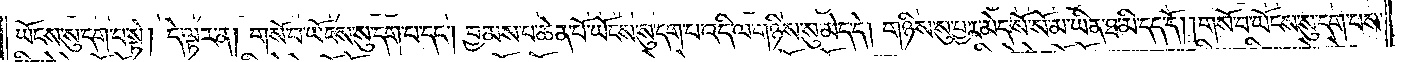ཡོངས་སུ་དག་པ་སྟེ། དེ་ལྟར་ན། གསོ་བ་ཡོངས་སུ་དག་པ་དང༌། བྱམས་པ་ཆེན་པོ་ཡོངས་སུ་དག་པ་འདི་ལ་གཉིས་སུ་མེད་དེ། གཉིས་སུ་བྱར་མེད་སོ་སོ་མ་ཡིན་ཐ་མི་དད་དོ། །གསོ་བ་ཡོངས་སུ་དག་པས་
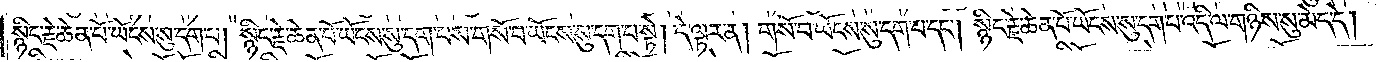སྙིང་རྗེ་ཆེན་པོ་ཡོངས་སུ་དག་པ། སྙིང་རྗེ་ཆེན་པོ་ཡོངས་སུ་དག་པས་གསོ་བ་ཡོངས་སུ་དག་པ་སྟེ། དེ་ལྟར་ན། གསོ་བ་ཡོངས་སུ་དག་པ་དང༌། སྙིང་རྗེ་ཆེན་པོ་ཡོངས་སུ་དག་པ་འདི་ལ་གཉིས་སུ་མེད་དེ།
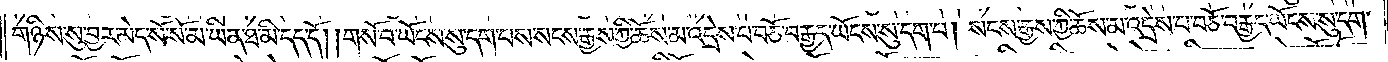གཉིས་སུ་བྱར་མེད་སོ་སོ་མ་ཡིན་ཐ་མི་དད་དོ། །གསོ་བ་ཡོངས་སུ་དག་པས་སངས་རྒྱས་ཀྱི་ཆོས་མ་འདྲེས་པ་བཅོ་བརྒྱད་ཡོངས་སུ་དག་པ། སངས་རྒྱས་ཆོས་མ་དྲེས་པ་བཅོ་བརྒྱད་ཡོངས་སུ་དག་
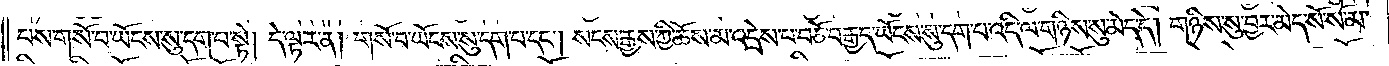པས་གསོ་བ་ཡོངས་སུ་དག་པ་སྟེ། དེ་ལྟར་ན། གསོ་བ་ཡོངས་སུ་དག་པ་དང༌། སངས་རྒྱས་ཀྱི་ཆོས་མ་འདྲེས་པ་བཅོ་བརྒྱད་ཡོངས་སུ་དག་པ་འདི་ལ་གཉིས་སུ་མེད་དེ། གཉིས་སུ་བྱར་མེད་སོ་སོ་མ་
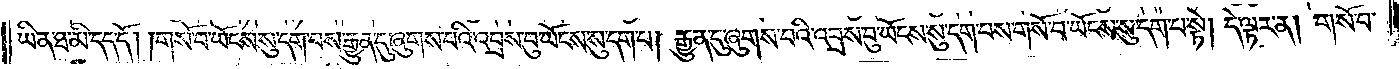ཡིན་ཐ་མི་དད་དོ། །གསོ་བ་ཡོངས་སུ་དག་པས་རྒྱུན་དུ་ཞུགས་པའི་འབྲས་བུ་ཡོངས་སུ་དག་པ། རྒྱུན་དུ་ཞུགས་པའི་འབྲས་བུ་ཡོངས་སུ་དག་པས་གསོ་བ་ཡོངས་སུ་དག་པ་སྟེ། དེ་ལྟར་ན། གསོ་བ་
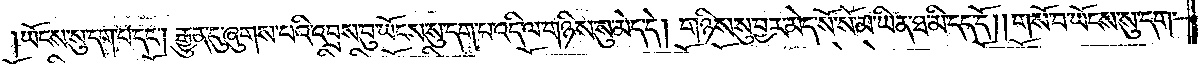ཡོངས་སུ་དག་པ་དང༌། རྒྱུན་དུ་ཞུགས་པའི་འབྲས་བུ་ཡོངས་སུ་དག་པ་འདི་ལ་གཉིས་སུ་མེད་དེ། གཉིས་སུ་བྱར་མེད་སོ་སོ་མ་ཡིན་ཐ་མི་དད་དོ། །གསོ་བ་ཡོངས་སུ་དག་
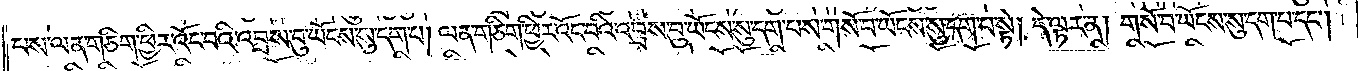པས་ལན་ཅིག་ཕྱིར་འོང་བའི་འབྲས་བུ་ཡོངས་སུ་དག་པ། ལན་ཅིག་ཕྱིར་འོང་བའི་འབྲས་བུ་ཡོངས་སུ་དག་པས་གསོ་བ་ཡོངས་སུ་དག་པ་སྟེ། དེ་ལྟར་ན། གསོ་བ་ཡོངས་སུ་དག་པ་དང༌།
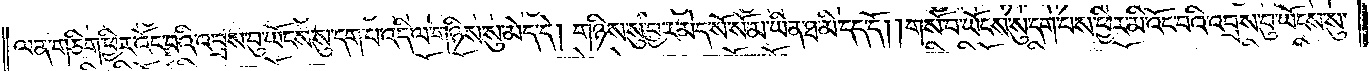ལན་ཅིག་ཕྱིར་འོང་བའི་འབྲས་བུ་ཡོངས་སུ་དག་པ་འདི་ལ་གཉིས་སུ་མེད་དེ། གཉིས་སུ་བྱར་མེད་སོ་སོ་མ་ཡིན་ཐ་མི་དད་དོ། །གསོ་བ་ཡོངས་སུ་དག་པས་ཕྱིར་མི་འོང་བའི་འབྲས་བུ་ཡོངས་སུ་
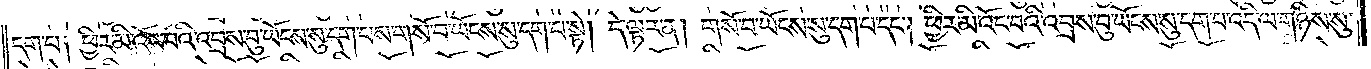དག་པ༑ ཕྱིར་མི་འོང་བའི་འབྲས་བུ་ཡོངས་སུ་དག་པས་གསོ་བ་ཡོངས་སུ་དག་པ་སྟེ། དེ་ལྟར་ན། གསོ་བ་ཡོངས་སུ་དག་པ་དང༌། ཕྱིར་མི་འོང་བའི་འབྲས་བུ་ཡོངས་སུ་དག་པ་འདི་ལ་གཉིས་སུ་
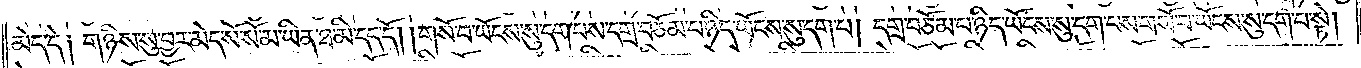མེད་དེ༑ གཉིས་སུ་བྱར་མེད་སོ་སོ་མ་ཡིན་ཐ་མི་དད་དོ། །གསོ་བ་ཡོངས་སུ་དག་པས་དགྲ་བཅོམ་པ་ཉིད་ཡོངས་སུ་དག་པ། དགྲ་བཅོམ་པ་ཉིད་ཡོངས་སུ་དག་པས་གསོ་བ་ཡོངས་སུ་དག་པ་སྟེ།
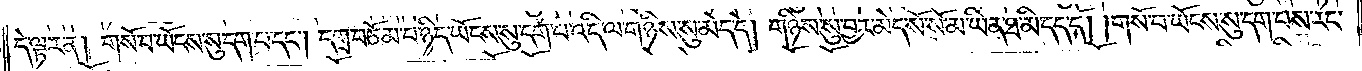དེ་ལྟར་ན། གསོ་བ་ཡོངས་སུ་དག་པ་དང༌། དགྲ་བཅོམ་པ་ཉིད་ཡོངས་སུ་དག་པ་འདི་ལ་གཉིས་སུ་མེད་དེ། གཉིས་སུ་བྱར་མེད་སོ་སོ་མ་ཡིན་ཐ་མི་དད་དོ། །གསོ་བ་ཡོངས་སུ་དག་པས་རང་
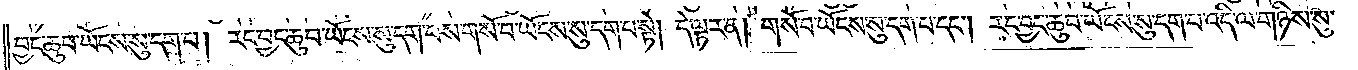བྱང་ཆུབ་ཡོངས་སུ་དག་པ། རང་བྱང་ཆུབ་ཡོངས་སུ་དག་པས་གསོ་བ་ཡོངས་སུ་དག་པ་སྟེ། དེ་ལྟར་ན། གསོ་བ་ཡོངས་སུ་དག་པ་དང༌། རང་བྱང་ཆུབ་ཀྱི་ཡོངས་སུ་དག་པ་འདི་ལ་གཉིས་སུ་
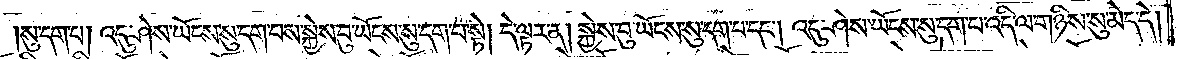སུ་དག་པ། འདུ་ཤེས་ཡོངས་སུ་དག་པས་སྐྱེས་བུ་ཡོངས་སུ་དག་པ་སྟེ། དེ་ལྟར་ན། སྐྱེས་བུ་ཡོངས་སུ་དག་པ་དང༌། འདུ་ཤེས་ཡོངས་སུ་དག་པ་འདི་ལ་གཉིས་སུ་མེད་དེ།
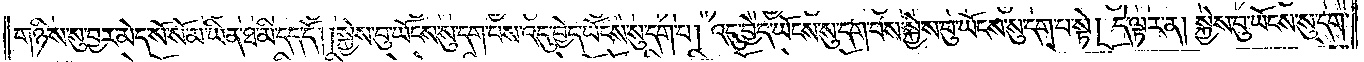གཉིས་སུ་བྱར་མེད་སོ་སོ་མ་ཡིན་ཐ་མི་དད་དོ། །སྐྱེས་བུ་ཡོངས་སུ་དག་པས་འདུ་བྱེད་ཡོངས་སུ་དག་པ། འདུ་བྱེད་ཡོངས་སུ་དག་པས་སྐྱེས་བུ་ཡོངས་སུ་དག་པ་སྟེ། དེ་ལྟར་ན། སྐྱེས་བུ་ཡོངས་སུ་དག་
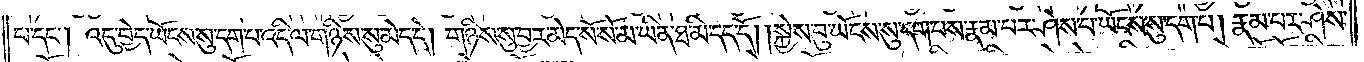པ་དང༌། འདུ་བྱེད་ཡོངས་སུ་དག་པ་འདི་ལ་གཉིས་སུ་མེད་དེ། གཉིས་སུ་བྱར་མེད་སོ་སོ་མ་ཡིན་ཐ་མི་དད་དོ། །སྐྱེས་བུ་ཡོངས་སུ་དག་པས་རྣམ་པར་ཤེས་པ་ཡོངས་སུ་དག་པ། རྣམ་པར་ཤེས་
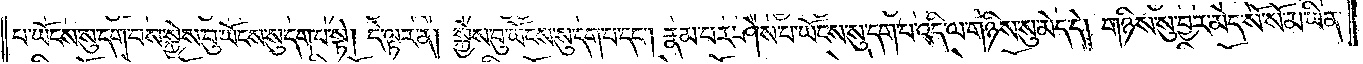པ་ཡོངས་སུ་དག་པས་སྐྱེས་བུ་ཡོངས་སུ་དག་པ་སྟེ། དེ་ལྟར་ན། སྐྱེས་བུ་ཡོངས་སུ་དག་པ་དང༌། རྣམ་པར་ཤེས་པ་ཡོངས་སུ་དག་པ་འདི་ལ་གཉིས་སུ་མེད་དེ། གཉིས་སུ་བྱར་མེད་སོ་སོ་མ་ཡིན་
